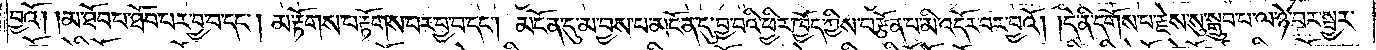བྱའོ། །མ་ཐོབ་པ་ཐོབ་པར་བྱ་བ་དང༌། མ་རྟོགས་པ་རྟོགས་པར་བྱ་བ་དང༌། མངོན་དུ་མ་བྱས་པ་མངོན་དུ་བྱ་བའི་ཕྱིར་ཁྱོད་ཀྱིས་བརྩོན་པ་མི་འདོར་བར་བྱའོ། །དེ་ནི་དགོས་པ་རྗེས་སུ་སྒྲུབ་པ་ལ་ཉེ་བར་སྦྱར་
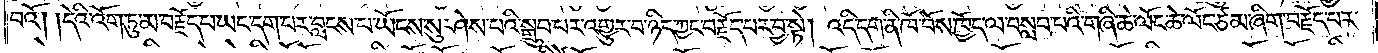བའོ། །དེའི་འོག་ཏུ་མ་བརྗོད་པ་ཡང་དག་པར་བླངས་པ་ཡོངས་སུ་ཤེས་པའི་སྒྲུབ་པར་འགྱུར་བ་ཉིད་ཀྱང་བརྗོད་པར་བྱ་སྟེ། འདི་དག་ནི་ཁོ་བོས་ཁྱོད་ལ་བསླབ་པའི་གཞི་ཆེ་ལོང་ཆེ་ལོང་ཙམ་ཞིག་བརྗོད་པར་
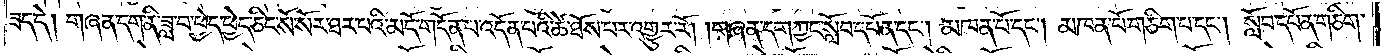ཟད་དེ། གཞན་དག་ནི་ཟླ་བ་ཕྱེད་ཕྱེད་ཅིང་སོ་སོར་ཐར་པའི་མདོ་གདོན་པ་འདོན་པའི་ཚེ་ཐོས་པར་འགྱུར་རོ། །གཞན་དག་ཀྱང་སློབ་དཔོན་དང༌། མཁན་པོ་དང༌། མཁན་པོ་གཅིག་པ་དང༌། སློབ་དཔོན་གཅིག་
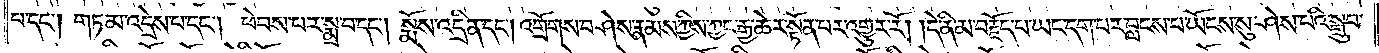པ་དང༌། གཏམ་འདྲེས་པ་དང༌། ཕེབས་པར་སྨྲ་བ་དང༌། སྨོས་འདྲིན་དང༌། འགྲོགས་བཤེས་རྣམས་ཀྱིས་ཀྱང་རྒྱ་ཆེར་སྟོན་པར་འགྱུར་རོ། །དེ་ནི་མ་བརྗོད་པ་ཡང་དག་པར་བླངས་པ་ཡོངས་སུ་ཤེས་པའི་སྒྲུབ་
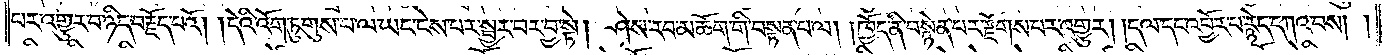པར་འགྱུར་བ་ཉིད་བརྗོད་པའོ། །དེའི་འོག་ཏུ་གུས་པ་ལ་ཡང་ངེས་པར་སྦྱར་བར་བྱ་སྟེ། ཤེས་རབ་མཆོག་གི་བསྟན་པ་ལ། །ཁྱོད་ནི་བསྙེན་པར་རྫོགས་པར་འགྱུར། །དལ་དང་འབྱོར་པ་རྙེད་དཀའ་བས། །
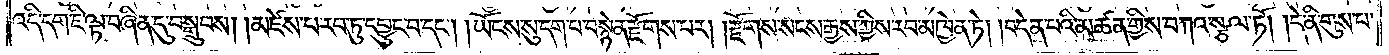འདི་དག་ཇི་ལྟ་བཞིན་དུ་བསྒྲུབས། །མཛེས་པ་རབ་ཏུ་དབྱུང་བ་དང༌། །ཡོངས་སུ་དག་པ་བསྙེན་རྫོགས་པར། །རྫོགས་སངས་རྒྱས་ཀྱིས་རབ་མཁྱེན་ཏེ། །བདེན་པའི་མཚན་གྱིས་བཀའ་སྩལ་ཏོ། །དེ་ནི་གུས་པ་
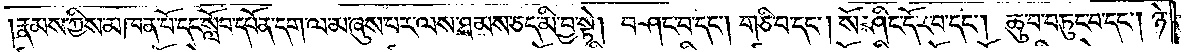།རྣམས་ཀྱིས་མཁན་པོ་དང་སློབ་དཔོན་དག་ལ་མ་ཞུས་པར་ལས་ཐམས་ཅད་མི་བྱ་སྟེ། བཤང་བ་དང༌། གཅི་བ་དང༌། སོ་ཤིང་དོར་བ་དང༌། ཆུ་བ་བཏུང་བ་དང༌། ཉེ་
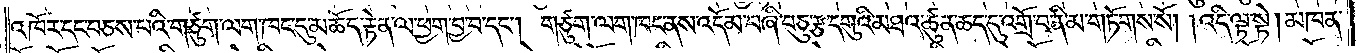འཁོར་དང་བཅས་པའི་གཙུག་ལག་ཁང་དུ་མཆོད་རྟེན་ལ་ཕྱག་བྱ་བ་དང༌། གཙུག་ལག་ཁང་ནས་འདོམ་བཞི་བཅུ་རྩ་དགུའི་མཐའ་ཚུན་ཆད་དུ་འགྲོ་བ་ནི་མ་གཏོགས་སོ། །འདི་ལྟ་སྟེ། མཁན་
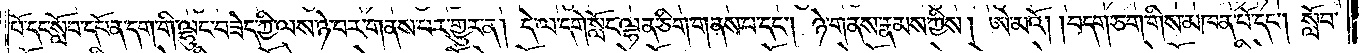པོ་དང་སློབ་དཔོན་དག་གི་ལྷུང་བཟེད་ཀྱི་ལས་ཉེ་བར་གནས་པར་གྱུར་ན། དེ་ལ་དགེ་སློང་ལྷན་ཅིག་གནས་པ་དང༌། ཉེ་གནས་རྣམས་ཀྱིས། ཨེ་མའོ། །བདག་ཅག་གིས་མཁན་པོ་དང༌། སློབ་
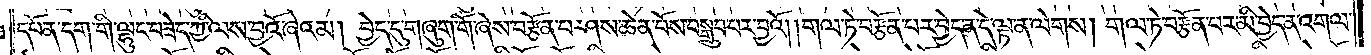དཔོན་དག་གི་ལྷུང་བཟེད་ཀྱི་ལས་བྱའོ་ཞེའམ། བྱེད་དུ་གཞུག་གོ་ཞེས་བརྩོན་བ་ཤས་ཆེན་པོས་བསྒྲུབ་པར་བྱའོ། །གལ་ཏེ་བརྩོན་པར་བྱེད་ན་དེ་ལྟ་ན་ལེགས། གལ་ཏེ་བརྩོན་པར་མི་བྱེད་ན་འགལ་
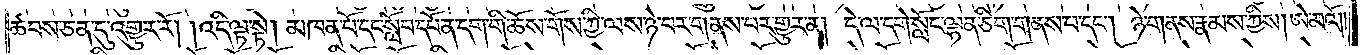ཚབས་ཅན་དུ་འགྱུར་རོ། །འདི་ལྟ་སྟེ། མཁན་པོ་དང་སློབ་དཔོན་དག་གི་ཆོས་གོས་ཀྱི་ལས་ཉེ་བར་གནས་པར་གྱུར་ན། དེ་ལ་དགེ་སློང་ལྷན་ཅིག་གནས་པ་དང༌། ཉེ་གནས་རྣམས་ཀྱིས། ཨེ་མའོ༎
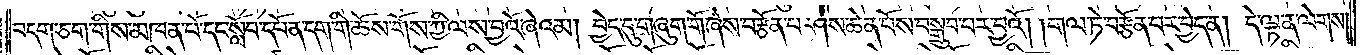བདག་ཅག་གིས་མཁན་པོ་དང་སློབ་དཔོན་དག་གི་ཆོས་གོས་ཀྱི་ལས་བྱའོ་ཞེའམ། བྱེད་དུ་གཞུག་གོ་ཞེས་བརྩོན་པ་ཤས་ཆེན་པོས་བསྒྲུབ་པར་བྱའོ། །གལ་ཏེ་བརྩོན་པར་བྱེད་ན། དེ་ལྟ་ན་ལེགས།
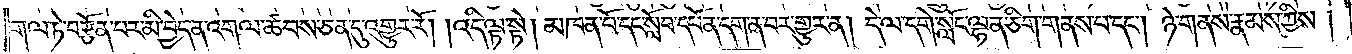གལ་ཏེ་བརྩོན་པར་མི་བྱེད་ན་འགལ་ཚབས་ཅན་དུ་འགྱུར་རོ། །འདི་ལྟ་སྟེ། མཁན་པོ་དང་སློབ་དཔོན་དག་ན་བར་གྱུར་ན། དེ་ལ་དགེ་སློང་ལྷན་ཅིག་གནས་པ་དང༌། ཉེ་གནས་རྣམས་ཀྱིས་
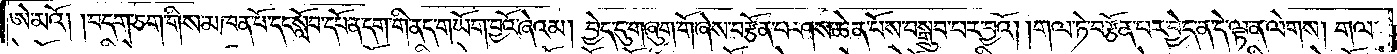ཨེ་མའོ། །བདག་ཅག་གིས་མཁན་པོ་དང་སློབ་དཔོན་དག་གི་ནད་གཡོག་བྱའོ་ཞེའམ། བྱེད་དུ་གཞུག་གོ་ཞེས་བརྩོན་པ་ཤས་ཆེན་པོས་བསྒྲུབ་པར་བྱའོ། །གལ་ཏེ་བརྩོན་པར་བྱེད་ན་དེ་ལྟ་ན་ལེགས། གལ་
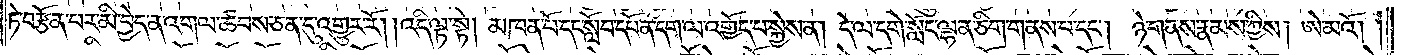ཏེ་བརྩོན་པར་མི་བྱེད་ན་འགལ་ཚབས་ཅན་དུ་འགྱུར་རོ། །འདི་ལྟ་སྟེ། མཁན་པོ་དང་སློབ་དཔོན་དག་ལ་འགྱོད་པ་སྐྱེས་ན། དེ་ལ་དགེ་སློང་ལྷན་ཅིག་གནས་པ་དང༌། ཉེ་གནས་རྣམས་ཀྱིས། ཨེ་མའོ། །
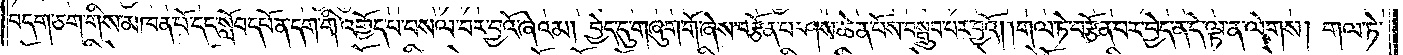བདག་ཅག་གིས་མཁན་པོ་དང་སློབ་དཔོན་དག་གི་འགྱོད་པ་བསལ་བར་བྱའོ་ཞེའམ། བྱེད་དུ་གཞུག་གོ་ཞེས་བརྩོན་པ་ཤས་ཆེན་པོས་བསྒྲུབ་པར་བྱའོ། །གལ་ཏེ་བརྩོན་པར་བྱེད་ན་དེ་ལྟ་ན་ལེགས། གལ་ཏེ་
